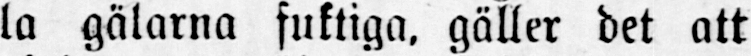la gälarna fuktiga, gäller det att
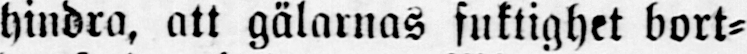hindra, att gälarnas fuktighet bort-
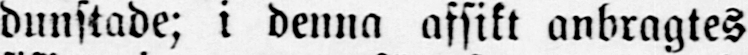dunstade; i denna afsikt anbragtes
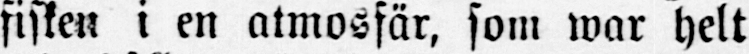fisken i en atmosfär, som war helt
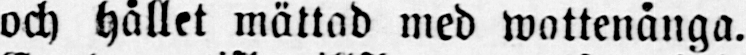och hållet mättad med wattenånga.
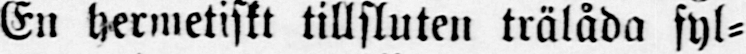En hermetiskt tillsluten trälåda fyl-
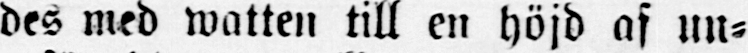des med watten till en höjd af un-
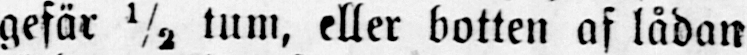gefär ½ tum, eller botten af lådan
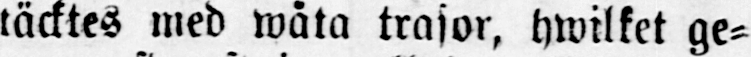täcktes med wåta trasor, hwilket ge-
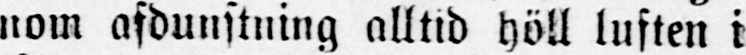nom afdunstning alltid höll luften i
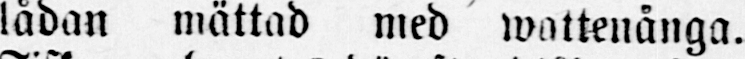lådan mättad med wattenånga.
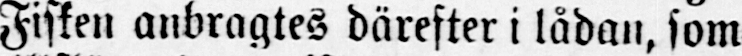Fisken anbragtes därefter i lådan, som
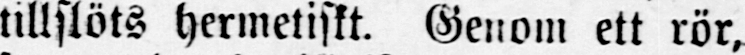tillslöts hermetiskt. Genom ett rör,
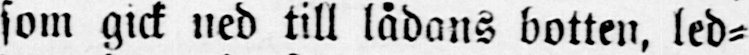som gick ned till lådans botten, led-
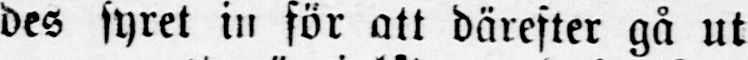des syret in för att därefter gå ut
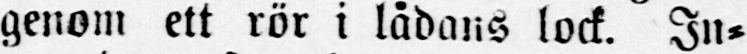genom ett rör i lådans lock. In-
